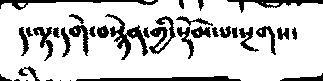ད་ལྟ་དགེ་བསྙེན་གྱི་སྡོམ་པ་སྔགས་
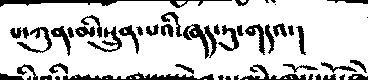པ་ཀུན་མ་སྲུན་པའི་ཞད་ཏུ་གདའ་།
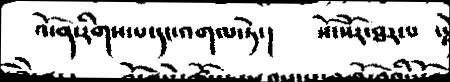འོ་ན་རིགས་པ་དང་འགལ་ཏེ་།   སོ་སོར་ཐར་པ   སྡེ
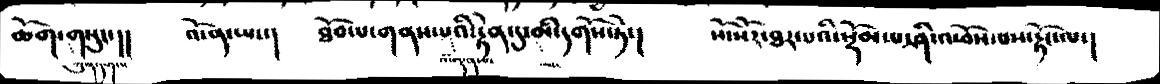ཆོག་ཀུན་དག་པ་གསུང་།།   འོ་ན་ཡང་།   ཐོབ་པ་གནས་པའི་འཾ་ལྡན་པ་རྟེན་དུ་མི་དགོས་ཏེ་།    སོ་སོར་ཐར་པའི་སྡོམ་པ་ཤུ་འཕོས་བས་རྟོང་ལ་།
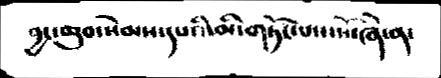བྱང་ཆུབ་སེམས་དཔའི་མི་གཏོང་པས་སོ་ཞེ་ན་
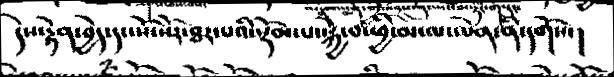དེས་རྟེན་བྱེད་དང་སོ་སོར་ཐར་པའི་སྡོམ་པ་སྐྱེ་པ་ཕྱི་མ་ལ་ལེན་ནི་དགོས་།
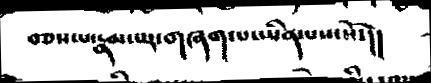བཅས་པ་རྣམ་པར་གཞན་པ་ཡིན་པས་སོ་།།
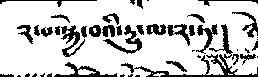༢་པ་སྐྱེ་བའི་རྒྱུ་མ་༢་ཏེ་།  ཉེ
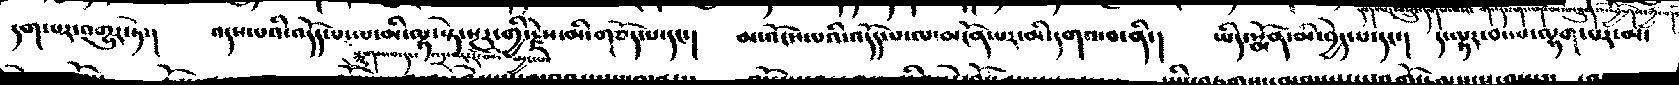དག་པར་འགྱུར་ཏེ་།    འདས་པའི་འདོད་པ་ལ་མི་ལྟ་ཏེ་སྔར་གྱི་རྗེས་མི་གཅོད་པ་དང་།   མ་འོངས་པའི་འདོད་པ་ལ་མངོན་པར་མི་དགའ་བ་ནི་།  ཏིད་སྨོན་མི་བྱེད་པ་དང་།   དེ་ལྟར་བ་པ་ལྷག་པར་མ་
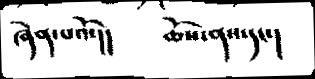ཞེན་པའོ་།།    ཆོས་ནས་དང་།
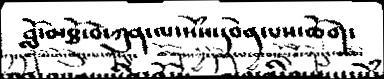བློ་མཐོ་བ་ཀུན་ལ་སེཾས་དབེན་པས་ཆོག་
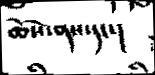ཆོས་ནས་དང་།
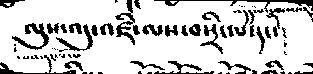ལུས་འདུ་འཛི་ལས་བསྲིང་པ་དང་།
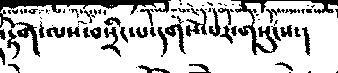རྟོག་ལས་བསྲིང་པ་དགོས་པར་གསུངས་།
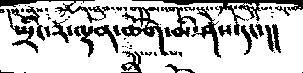སྤྲིང་༢་ལྷན་ཆོག་མི་ཤེས་དང་།།
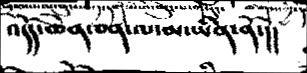འདོད་ཆེན་ཅན་ལ་མ་ཡིན་ནོ་།།
